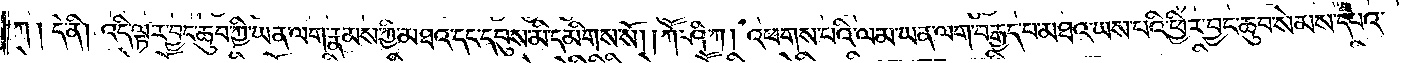ཀ། དེ་ནི། འདི་ལྟར་བྱང་ཆུབ་ཀྱི་ཡན་ལག་རྣམས་ཀྱི་མཐའ་དང་དབུས་མི་དམིགས་སོ། །ཀཽ་ཤི་ཀ། འཕགས་པའི་ལམ་ཡན་ལག་བརྒྱད་པ་མཐའ་ཡས་པའི་ཕྱིར་བྱང་ཆུབ་སེམས་དཔའ་
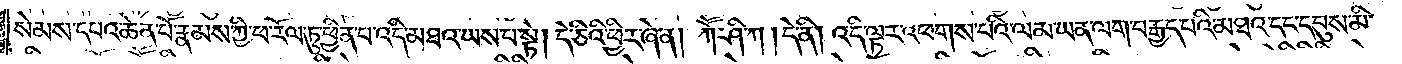སེམས་དཔའ་ཆེན་པོ་རྣམས་ཀྱི་ཕ་རོལ་ཏུ་ཕྱིན་པ་འདི་མཐའ་ཡས་པ་སྟེ། དེ་ཅིའི་ཕྱིར་ཞེ་ན། ཀཽ་ཤི་ཀ། དེ་ནི། འདི་ལྟར་འཕགས་པའི་ལམ་ཡན་ལག་བརྒྱད་པའི་མཐའ་དང་དབུས་མི་
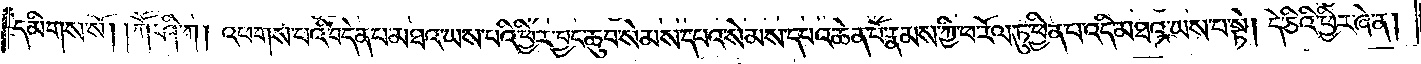དམིགས་སོ། །ཀཽ་ཤི་ཀ། འཕགས་པའི་བདེན་པ་མཐའ་ཡས་པའི་ཕྱིར་བྱང་ཆུབ་སེམས་དཔའ་སེམས་དཔའ་ཆེན་པོ་རྣམས་ཀྱི་ཕ་རོལ་ཏུ་ཕྱིན་པ་འདི་མཐའ་ཡས་པ་སྟེ། དེ་ཅིའི་ཕྱིར་ཞེ་ན།
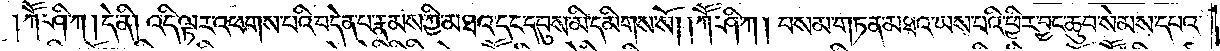ཀཽ་ཤི་ཀ། དེ་ནི། འདི་ལྟར་འཕགས་པའི་བདེན་པ་རྣམས་ཀྱི་མཐའ་དང་དབུས་མི་དམིགས་སོ། །ཀཽ་ཤི་ཀ། བསམ་གཏན་མཐའ་ཡས་པའི་ཕྱིར་བྱང་ཆུབ་སེམས་དཔའ་
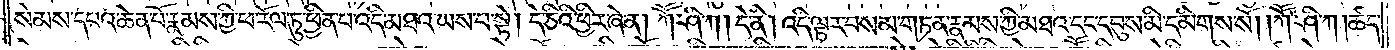སེམས་དཔའ་ཆེན་པོ་རྣམས་ཀྱི་ཕ་རོལ་ཏུ་ཕྱིན་པ་འདི་མཐའ་ཡས་པ་སྟེ། དེ་ཅིའི་ཕྱིར་ཞེ་ན། ཀཽ་ཤི་ཀ། དེ་ནི། འདི་ལྟར་བསམ་གཏན་རྣམས་ཀྱི་མཐའ་དང་དབུས་མི་དམིགས་སོ། །ཀཽ་ཤི་ཀ། ཚད་
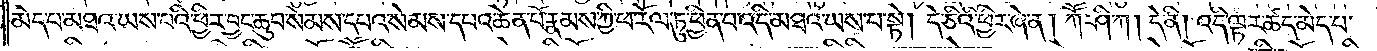མེད་པ་མཐའ་ཡས་པའི་ཕྱིར་བྱང་ཆུབ་སེམས་དཔའ་སེམས་དཔའ་ཆེན་པོ་རྣམས་ཀྱི་ཕ་རོལ་ཏུ་ཕྱིན་པ་འདི་མཐའ་ཡས་པ་སྟེ། དེ་ཅིའི་ཕྱིར་ཞེ་ན། ཀཽ་ཤི་ཀ། དེ་ནི། འདི་ལྟར་ཚད་མེད་པ་
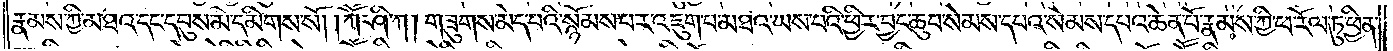རྣམས་ཀྱི་མཐའ་དང་དབུས་མི་དམིགས་སོ། །ཀཽ་ཤི་ཀ། གཟུགས་མེད་པའི་སྙོམས་པར་འཇུག་པ་མཐའ་ཡས་པའི་ཕྱིར་བྱང་ཆུབ་སེམས་དཔའ་སེམས་དཔའ་ཆེན་པོ་རྣམས་ཀྱི་ཕ་རོལ་ཏུ་ཕྱིན་
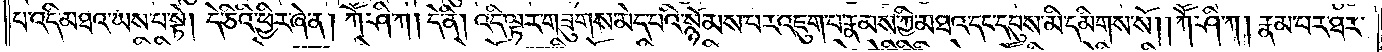པ་འདི་མཐའ་ཡས་པ་སྟེ། དེ་ཅིའི་ཕྱིར་ཞེ་ན། ཀཽ་ཤི་ཀ། དེ་ནི། འདི་ལྟར་གཟུགས་མེད་པའི་སྙོམས་པར་འཇུག་པ་རྣམས་ཀྱི་མཐའ་དང་དབུས་མི་དམིགས་སོ། །ཀཽ་ཤི་ཀ། རྣམ་པར་ཐར་
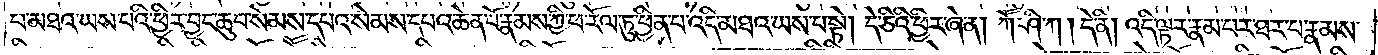པ་མཐའ་ཡས་པའི་ཕྱིར་བྱང་ཆུབ་སེམས་དཔའ་སེམས་དཔའ་ཆེན་པོ་རྣམས་ཀྱི་ཕ་རོལ་ཏུ་ཕྱིན་པ་འདི་མཐའ་ཡས་པ་སྟེ། དེ་ཅིའི་ཕྱིར་ཞེ་ན། ཀཽ་ཤི་ཀ། དེ་ནི། འདི་ལྟར་རྣམ་པར་ཐར་པ་རྣམས་
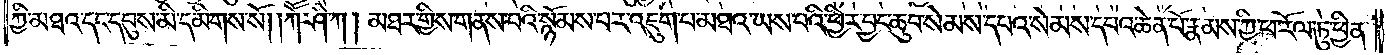ཀྱི་མཐའ་དང་དབུས་མི་དམིགས་སོ། །ཀཽ་ཤི་ཀ། མཐར་གྱིས་གནས་པའི་སྙོམས་པར་འཇུག་པ་མཐའ་ཡས་པའི་ཕྱིར་བྱང་ཆུབ་སེམས་དཔའ་སེམས་དཔའ་ཆེན་པོ་རྣམས་ཀྱི་ཕ་རོལ་ཏུ་ཕྱིན་
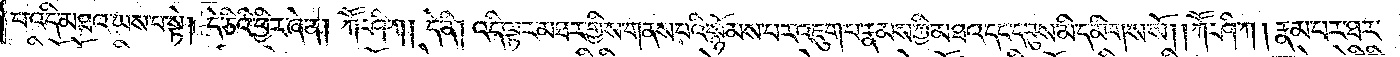པ་འདི་མཐའ་ཡས་པ་སྟེ། དེ་ཅིའི་ཕྱིར་ཞེ་ན། ཀཽ་ཤི་ཀ། དེ་ནི། འདི་ལྟར་མཐར་གྱིས་གནས་པའི་སྙོམས་པར་འཇུག་པ་རྣམས་ཀྱི་མཐའ་དང་དབུས་མི་དམིགས་སོ། །ཀཽ་ཤི་ཀ། རྣམ་པར་ཐར་
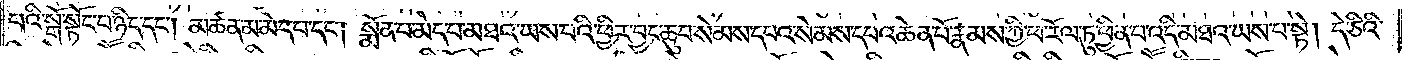པའི་སྒོ་སྟོང་པ་ཉིད་དང༌། མཚན་མ་མེད་པ་དང༌། སྨོན་པ་མེད་པ་མཐའ་ཡས་པའི་ཕྱིར་བྱང་ཆུབ་སེམས་དཔའ་སེམས་དཔའ་ཆེན་པོ་རྣམས་ཀྱི་ཕ་རོལ་ཏུ་ཕྱིན་པ་འདི་མཐའ་ཡས་པ་སྟེ། དེ་ཅིའི་
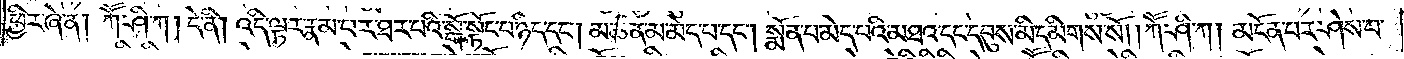ཕྱིར་ཞེ་ན། ཀཽ་ཤི་ཀ། དེ་ནི། འདི་ལྟར་རྣམ་པར་ཐར་པའི་སྒོ་སྟོང་པ་ཉིད་དང༌། མཚན་མ་མེད་པ་དང༌། སྨོན་པ་མེད་པའི་མཐའ་དང་དབུས་མི་དམིགས་སོ། །ཀཽ་ཤི་ཀ། མངོན་པར་ཤེས་པ་
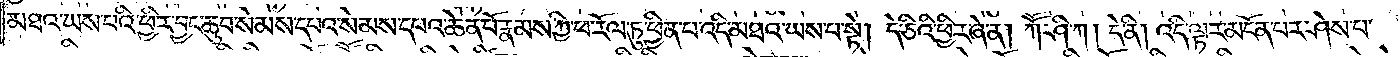མཐའ་ཡས་པའི་ཕྱིར་བྱང་ཆུབ་སེམས་དཔའ་སེམས་དཔའ་ཆེན་པོ་རྣམས་ཀྱི་ཕ་རོལ་ཏུ་ཕྱིན་པ་འདི་མཐའ་ཡས་པ་སྟེ། དེ་ཅིའི་ཕྱིར་ཞེ་ན། ཀཽ་ཤི་ཀ། དེ་ནི། འདི་ལྟར་མངོན་པར་ཤེས་པ་
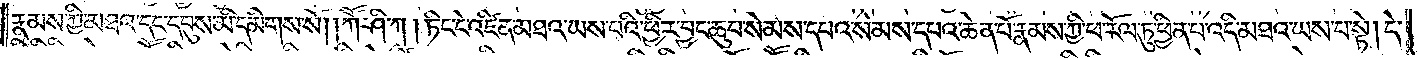རྣམས་ཀྱི་མཐའ་དང་དབུས་མི་དམིགས་སོ། །ཀཽ་ཤི་ཀ། ཏིང་ངེ་འཛིན་མཐའ་ཡས་པའི་ཕྱིར་བྱང་ཆུབ་སེམས་དཔའ་སེམས་དཔའ་ཆེན་པོ་རྣམས་ཀྱི་ཕ་རོལ་ཏུ་ཕྱིན་པ་འདི་མཐའ་ཡས་པ་སྟེ། དེ་
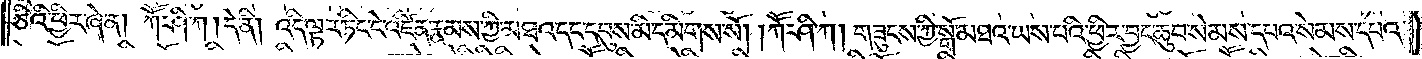ཅིའི་ཕྱིར་ཞེ་ན། ཀཽ་ཤི་ཀ། དེ་ནི། འདི་ལྟར་ཏིང་ངེ་འཛིན་རྣམས་ཀྱི་མཐའ་དང་དབུས་མི་དམིགས་སོ། །ཀཽ་ཤི་ཀ། གཟུངས་ཀྱི་སྒོ་མཐའ་ཡས་པའི་ཕྱིར་བྱང་ཆུབ་སེམས་དཔའ་སེམས་དཔའ་
